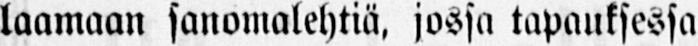laamaan sanomalehtiä, jossa tapauksessa
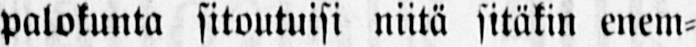palokunta sitoutuisi niitä sitäkin enem-
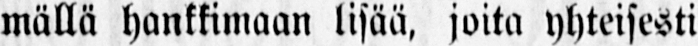mällä hankkimaan lisää, joita yhteisesti
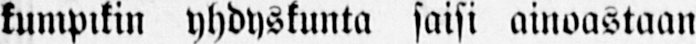kumpikin yhdyskunta saisi ainoastaan
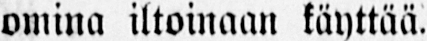omina iltoinaan käyttää.
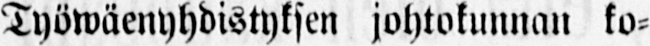Työwäenyhdistyksen johtokunnan ko-
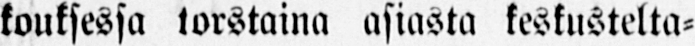kouksessa torstaina asiasta keskustelta-
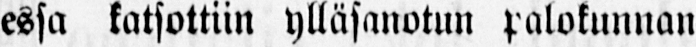essa katsottiin ylläsanotun palokunnan
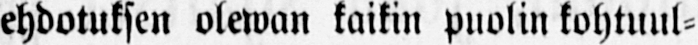ehdotuksen olewan kaikin puolin kohtuul-
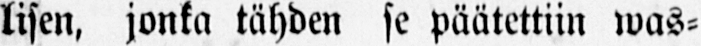lisen, jonka tähden se päätettiin was-
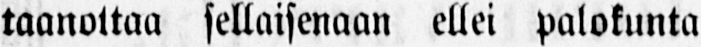taanottaa sellaisenaan ellei palokunta
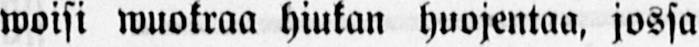woisi wuokraa hiukan huojentaa, jossa
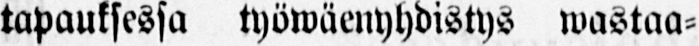tapauksessa työwäenyhdistys wastaa-
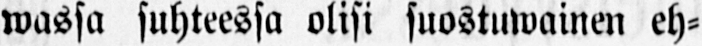wassa suhteessa olisi suostuwainen eh-
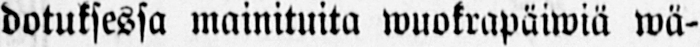dotuksessa mainituita wuokrapäiwiä wä-
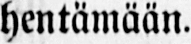hentämään.
